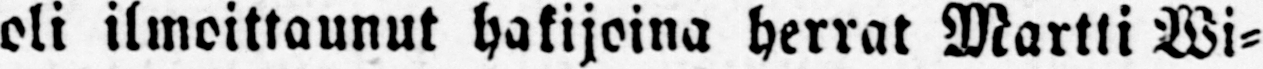eli ilmoittaunut hakijoina herrat Martti Wi-
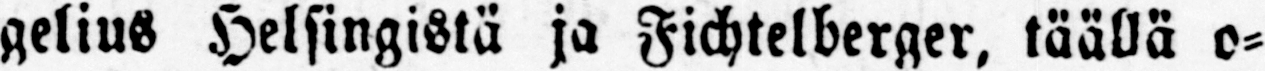gelius Helsingistä ja Fichtelberger, täällä o-
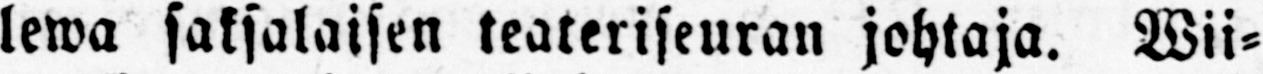lewa saksalaisen teateriseuran johtaja. Wii-
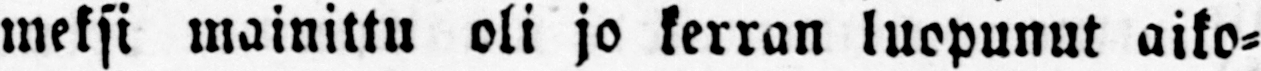meksi mainittu oli jo kerran luopunut aiko-
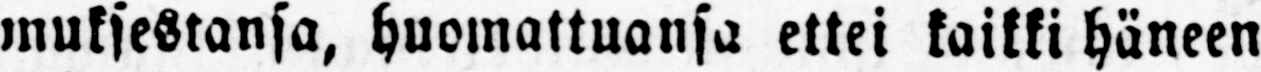muksestansa, huomattuansa ettei kaikki häneen
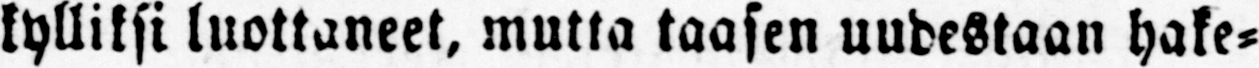kylliksi luottaneet, mutta taasen uudestaan hake-
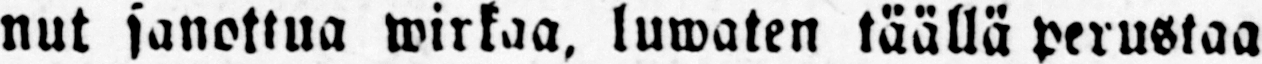nut sanottua wirkaa, luwaten täällä perustaa
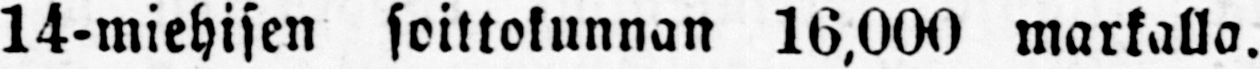14-miehisen soittokunnan 16.000 markalla.
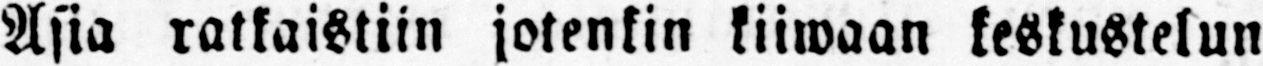Asia ratkaistiin jotenkin kiiwaan keskustelun
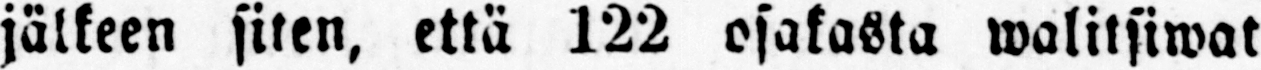jälkeen siten, että 122 osakasta walitsiwat
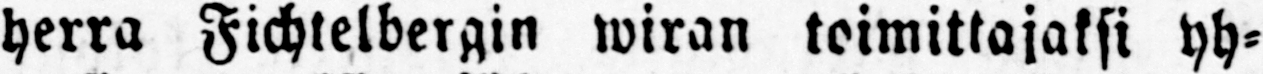herra Fichtelbergin wiran toimittajaksi yh-
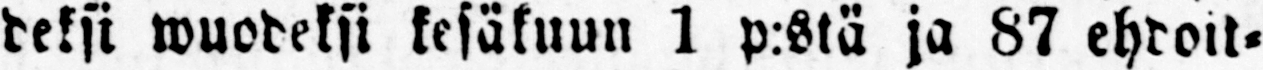deksi wuodeksi kesäkuun 1 p:stä ja 87 ehdoit-
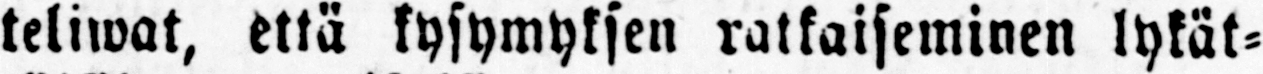teliwat, että kysymyksen ratkaiseminen lykät-
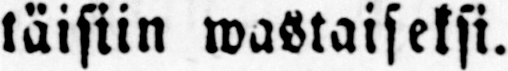täisiin wastaiseksi.
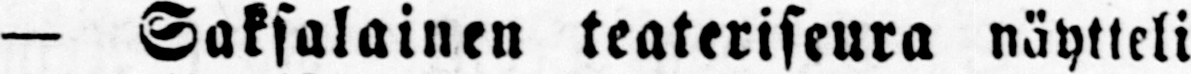— Saksalainen teateriseura näytteli
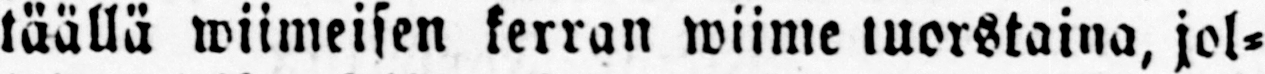täällä wiimeisen kerran wiime tuorstaina, jol-
